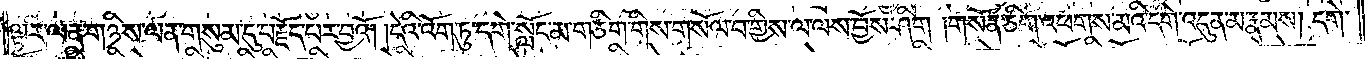ལྟར་ལན་གཉིས་ལན་གསུམ་དུ་བརྗོད་པར་བྱའོ། །དེའི་འོག་ཏུ་དགེ་སློང་མ་གཅིག་གིས་གསོལ་བ་གྱིས་ལ་ལས་བྱོས་ཤིག །གསོན་ཅིག་འཕགས་མའི་དགེ་འདུན་མ་རྣམས། དགེ་
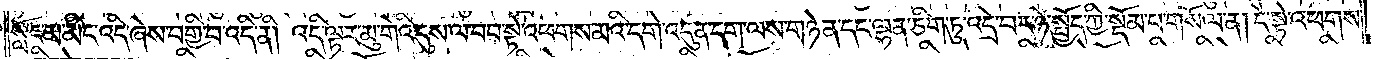སློང་མ་མིང་འདི་ཞེས་བགྱི་བ་འདི་ནི། འདི་ལྟར་མུ་གེའི་དུས་ལ་བབ་སྟེ་འཕགས་མའི་དགེ་འདུན་དག་ལས་གཉེན་དང་ལྷན་ཅིག་ཏུ་འདྲེ་བར་ཉེ་སྤྱོད་ཀྱི་སྡོམ་པ་གསོལ་ན། དེ་སྟེ་འཕགས་
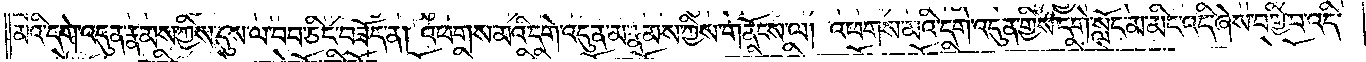མའི་དགེ་འདུན་རྣམས་ཀྱིས་དུས་ལ་བབ་ཅིང་བཟོད་ན། འཕགས་མའི་དགེ་འདུན་མ་རྣམས་ཀྱིས་གནོངས་ལ། འཕགས་མའི་དགེ་འདུན་གྱིས་དགེ་སློང་མ་མིང་འདི་ཞེས་བགྱི་བ་འདི་
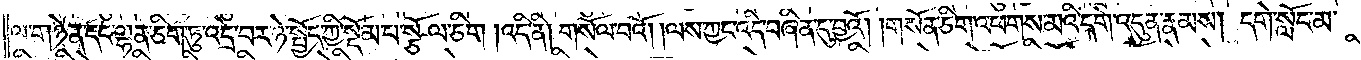ལ་གཉེན་དང་ལྷན་ཅིག་ཏུ་འདྲེ་བར་ཉེ་སྤྱོད་ཀྱི་སྡོམ་པ་སྩོལ་ཅིག །འདི་ནི། གསོལ་བའོ། །ལས་ཀྱང་འདི་བཞིན་དུ་བྱའོ། །གསོན་ཅིག་འཕགས་མའི་དགེ་འདུན་རྣམས། དགེ་སློང་མ་
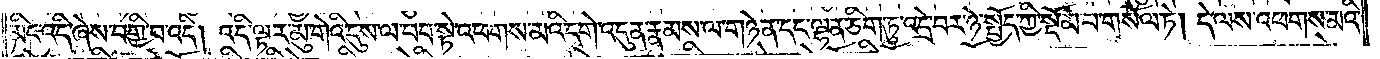མིང་འདི་ཞེས་བགྱི་བ་འདི། འདི་ལྟར་མུ་གེའི་དུས་ལ་བབ་སྟེ་འཕགས་མའི་དགེ་འདུན་རྣམས་ལ་གཉེན་དང་ལྷན་ཅིག་ཏུ་འདྲེ་བར་ཉེ་སྤྱོད་ཀྱི་སྡོམ་པ་གསོལ་ཏེ། དེ་ལས་འཕགས་མའི་
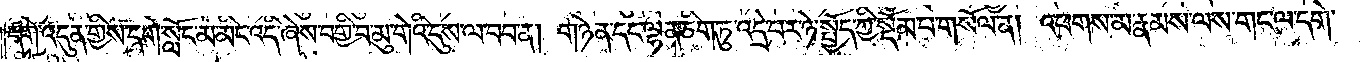དགེ་འདུན་གྱིས་དགེ་སློང་མ་མིང་འདི་ཞེས་བགྱི་བ་མུ་གེའི་དུས་ལ་བབ་ན། གཉེན་དང་ལྷན་ཅིག་ཏུ་འདྲེ་བར་ཉེ་སྤྱོད་ཀྱི་སྡོམ་པ་གསོལ་ན། འཕགས་མ་རྣམས་ལས་གང་ལ་དགེ་
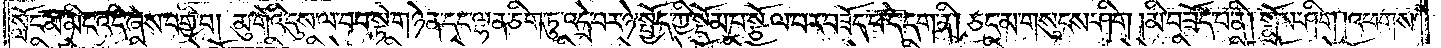སློང་མ་མིང་འདི་ཞེས་བགྱི་བ། མུ་གེའུ་དུས་ལ་བབ་སྟེ་གཉེན་དང་ལྷན་ཅིག་ཏུ་འདྲེ་བར་ཉེ་སྤྱོད་ཀྱི་སྡོམ་པ་སྩོལ་བར་བཟོད་པ་དེ་དག་ནི། ཅང་མ་གསུངས་ཤིག །མི་བཟོད་པ་ནི། སྨྲོས་ཤིག །འཕགས་
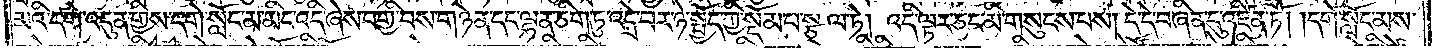མའི་དགེ་འདུན་གྱིས་དགེ་སློང་མ་མིང་འདི་ཞེས་བགྱི་བས་གཉེན་དང་ལྷན་ཅིག་ཏུ་འདྲེ་བར་ཉེ་སྤྱོད་ཀྱི་སྡོམ་པ་སྩལ་ཏེ། འདི་ལྟར་ཅང་མི་གསུངས་པས། དེ་དེ་བཞིན་དུ་འཛིན་ཏོ། །དགེ་སློང་མས་
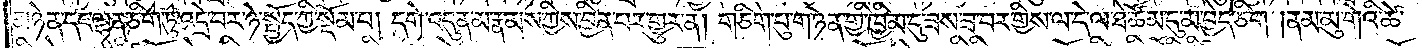མཉེན་དང་ལྷན་ཅིག་ཏུ་འདྲེ་བར་ཉེ་སྤྱོད་ཀྱི་སྡོམ་པ། དགེ་འདུན་མ་རྣམས་ཀྱིས་བྱིན་པར་གྱུར་ན། གཅིག་པུ་གཉེན་གྱི་ཁྱིམ་དུ་ཟས་ཟ་བར་གྱིས་ལ་དེ་ལ་ཐེ་ཚོམ་དུ་མ་བྱེད་ཅིག །ནམ་མུ་གེའི་ཚེ་
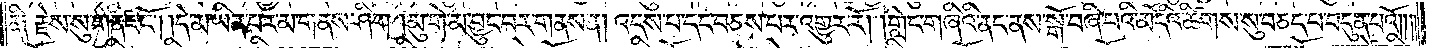ནི༑ རྗེས་སུ་གནང་ངོ༌། །དེ་མ་ཡིན་པར་མ་གནས་ཤིག །མུ་གེ་མ་བྱུང་བར་གནས་ན། འདས་པ་དང་བཅས་པར་འགྱུར་རོ། །གླེང་གཞིའི་ནང་ནས་སྒོ་བཞི་པའི་མདོའི་ཚིགས་སུ་བཅད་པ་བདུན་པའོ༎།
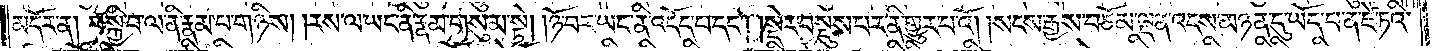མདོར་ན། བསྐྱི་བ་ལ་ནི་རྣམ་པ་གཉིས། །རས་ལ་ཡང་ནི་རྣམ་གསུམ་སྟེ། །ཉོ་བར་ཡང་ནི་འདོད་པ་དང༌། །སྡེར་བསྡུས་པར་ནི་གྱུར་པའོ། །སངས་རྒྱས་བཅོམ་ལྡན་འདས་མཉན་དུ་ཡོད་པ་ན་ཛེ་ཏའི་
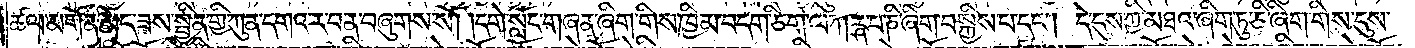ཚལ་མགོན་མེད་ཟས་སྦྱིན་གྱི་ཀུན་དགའ་ར་བ་ན་བཞུགས་སོ། །དགེ་སློང་གཞན་ཞིག་གིས་ཁྱིམ་བདག་ཅིག་ལ་ཀརྴ་པ་ཎི་ཞིག་བསྐྱིས་པ་དང༌། དེ་དུས་ཀྱི་མཐའ་ཞིག་ཏུ་ཅི་ཞིག་གིས་དུས་
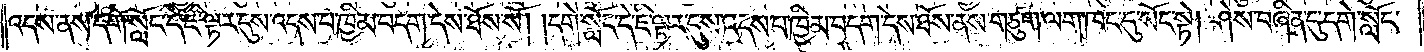འདས་ནས་དགེ་སློང་དེ་ཇི་ལྟར་དུས་འདས་པ་ཁྱིམ་བདག་དེས་ཐོས་སོ། །དགེ་སློང་དེ་ཇི་ལྟར་དུས་འདས་པ་ཁྱིམ་བདག་དེས་ཐོས་ནས་གཙུག་ལག་ཁང་དུ་སོང་སྟེ། ཤེས་བཞིན་དུ་དགེ་སློང་
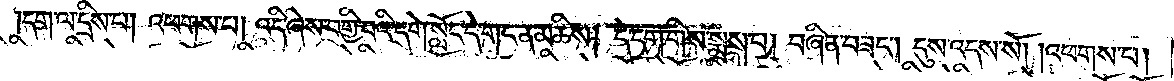དག་ལ་དྲིས་པ། འཕགས་པ། འདི་ཞེས་བགྱི་བའི་དགེ་སློང་དེ་གང་ན་མཆིས། དེ་དག་གིས་སྨྲས་པ། བཞིན་བཟང༌། དུས་འདས་སོ། །འཕགས་པ།
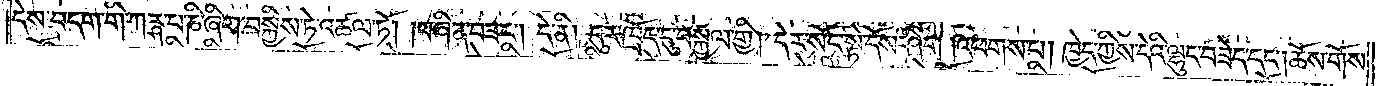དེས་བདག་གི་ཀརྴ་པ་ཎི་ཞིག་བསྐྱིས་ཏེ་འཚལ་ཏོ། །བཞིན་བཟང༌། དེ་ནི། དུར་ཁྲོད་དུ་བསྐྱལ་གྱི། དེར་སོང་སྟེ་དོས་ཤིག །འཕགས་པ། ཁྱེད་ཀྱིས་དེའི་ལྷུང་བཟེད་དང༌། ཆོས་གོས་
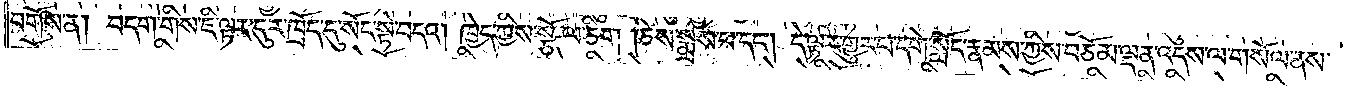བགོས་ན། བདག་གིས་ཇི་ལྟར་དུར་ཁྲོད་དུ་སོང་སྟེ་བདའ། ཁྱེད་ཀྱིས་སྩོལ་ཅིག །ཅེས་སྨྲས་པ་དང༌། དེ་ལྟར་གྱུར་པ་དགེ་སློང་རྣམས་ཀྱིས་བཅོམ་ལྡན་འདས་ལ་གསོལ་ནས་
